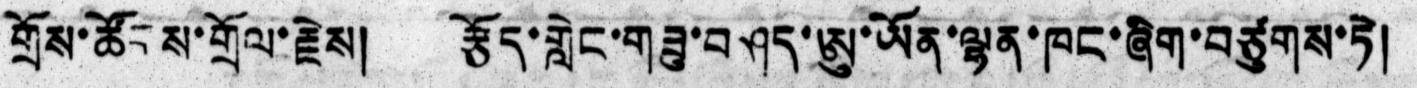གྲོས་ཚོངས་གྲོལ་རྗེས། རྩོད་གླེང་གཟུ་བཤད་ཨུ་ཡོན་ལྷན་ཁང་ཞིག་བཙུགས་ཏེ།
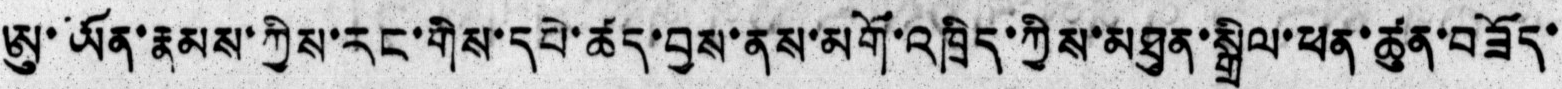ཨུ་ཡོན་རྣམས་ཀྱིས་རང་གིས་དཔེ་ཚད་བྱས་ནས་མགོ་འཁྲིད་ཀྱིས་མཐུན་སྒྲིལ་ཕན་ཚུན་བཟོད་
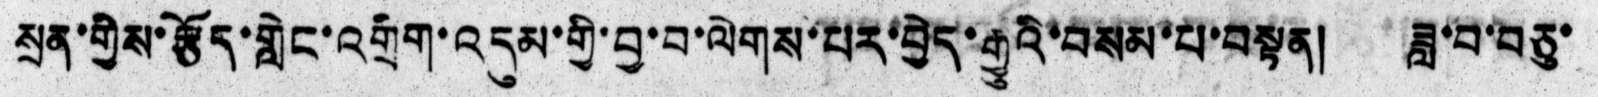སྲན་གྱིས་རྩོད་གླེང་འགྲིག་འདུམ་གྱི་བྱ་བ་ལེགས་པར་བྱེད་རྒྱུའི་བསམ་པ་བསྟན། ཟླ་བ་བཅུ་
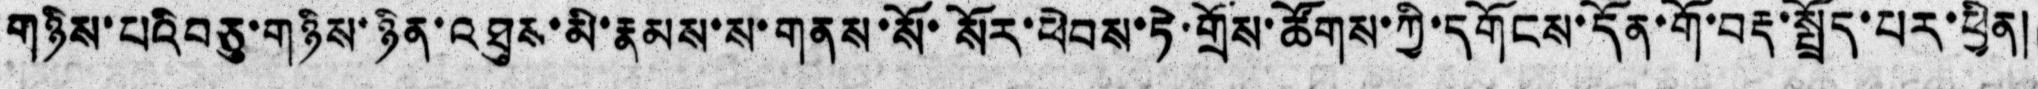གཉིས་པའི བཅུ་གཉིས་ཉིན་འཐུས་མི་རྣམས་ས་གནས་སོ་སོར་ཕེབས་ཏེ་གྲོས་ཚོགས་ཀྱི་དགོངས་དོན་གོ་བརྡ་སྤྲོད་པར་ཕྱིན།
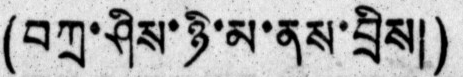(བཀྲ་ཤིས་ཉི་མ་ནས་བྲིས།)
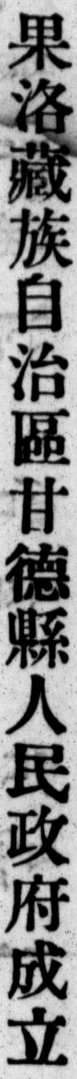果洛藏族自治區甘德縣人民政府成立
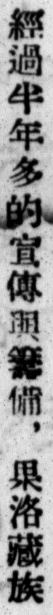經過半年多的宣傳與籌備，果洛藏族
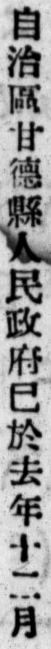自治區甘德縣人民政府已於去年十二月
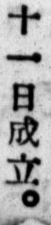十一日成立。
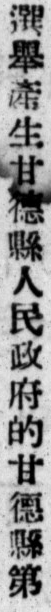選舉產生甘德縣人民政府的甘德縣第
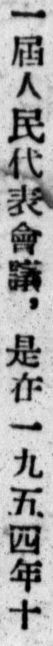一屆人民代表會議，是在一九五四年十
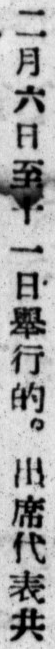二月六日至十一日舉行的。出席代表共
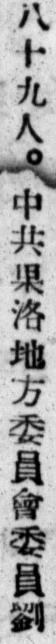八十九人。中共果洛地方委員會委員劉
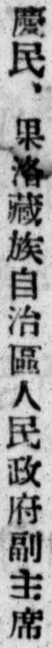慶民，果洛藏族自治區人民政府副主席
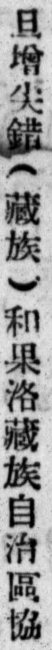旦增尖錯（藏族）和果洛藏族自治區協
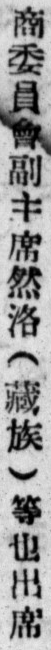商委員會副主席然洛（藏族）等也出席
